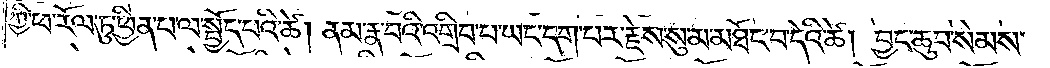ཀྱི་ཕ་རོལ་ཏུ་ཕྱིན་པ་ལ་སྤྱོད་པའི་ཚེ། ནམ་རྣ་བའི་འགྲིབ་པ་ཡང་དག་པར་རྗེས་སུ་མ་མཐོང་བ་དེའི་ཚེ། བྱང་ཆུབ་སེམས་
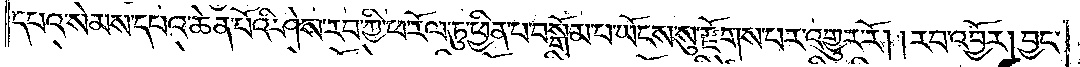དཔའ་སེམས་དཔའ་ཆེན་པོའི་ཤེས་རབ་ཀྱི་ཕ་རོལ་ཏུ་ཕྱིན་པ་བསྒོམ་པ་ཡོངས་སུ་རྫོགས་པར་འགྱུར་རོ། །རབ་འབྱོར། བྱང་
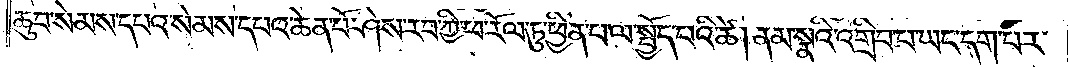ཆུབ་སེམས་དཔའ་སེམས་དཔའ་ཆེན་པོ་ཤེས་རབ་ཀྱི་ཕ་རོལ་ཏུ་ཕྱིན་པ་ལ་སྤྱོད་པའི་ཚེ། ནམ་སྣའི་འགྲིབ་པ་ཡང་དག་པར་
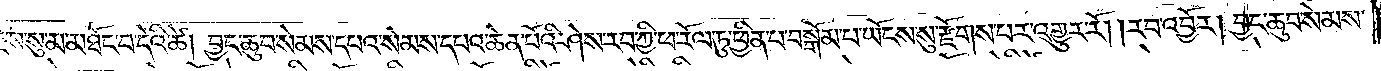རྗེས་སུ་མ་མཐོང་བ་དེའི་ཚེ། བྱང་ཆུབ་སེམས་དཔའ་སེམས་དཔའ་ཆེན་པོའི་ཤེས་རབ་ཀྱི་ཕ་རོལ་ཏུ་ཕྱིན་པ་བསྒོམ་པ་ཡོངས་སུ་རྫོགས་པར་འགྱུར་རོ། །རབ་འབྱོར། བྱང་ཆུབ་སེམས་
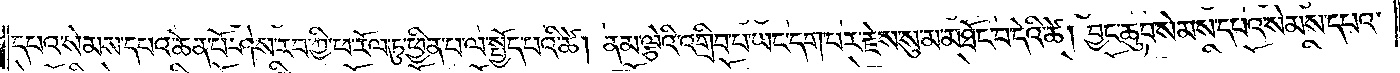དཔའ་སེམས་དཔའ་ཆེན་པོ་ཤེས་རབ་ཀྱི་ཕ་རོལ་ཏུ་ཕྱིན་པ་ལ་སྤྱོད་པའི་ཚེ། ནམ་ལྕེའི་འགྲིབ་པ་ཡང་དག་པར་རྗེས་སུ་མ་མཐོང་བ་དེའི་ཚེ། བྱང་ཆུབ་སེམས་དཔའ་སེམས་དཔའ་
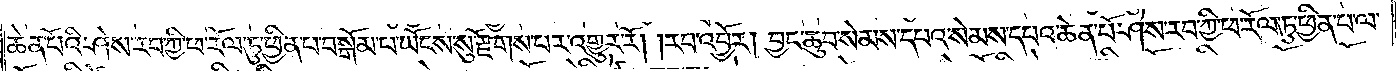ཆེན་པོའི་ཤེས་རབ་ཀྱི་ཕ་རོལ་ཏུ་ཕྱིན་པ་བསྒོམ་པ་ཡོངས་སུ་རྫོགས་པར་འགྱུར་རོ། །རབ་འབྱོར། བྱང་ཆུབ་སེམས་དཔའ་སེམས་དཔའ་ཆེན་པོ་ཤེས་རབ་ཀྱི་ཕ་རོལ་ཏུ་ཕྱིན་པ་ལ་
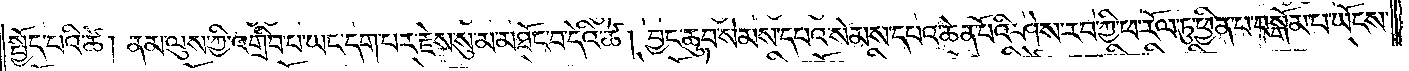སྤྱོད་པའི་ཚེ། ནམ་ལུས་ཀྱི་འགྲིབ་པ་ཡང་དག་པར་རྗེས་སུ་མ་མཐོང་བ་དེའི་ཚེ། བྱང་ཆུབ་སེམས་དཔའ་སེམས་དཔའ་ཆེན་པོའི་ཤེས་རབ་ཀྱི་ཕ་རོལ་ཏུ་ཕྱིན་པ་བསྒོམ་པ་ཡོངས་
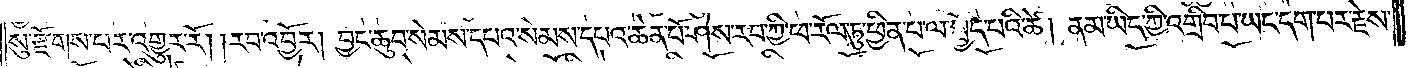སུ་རྫོགས་པར་འགྱུར་རོ། །རབ་འབྱོར། བྱང་ཆུབ་སེམས་དཔའ་སེམས་དཔའ་ཆེན་པོ་ཤེས་རབ་ཀྱི་ཕ་རོལ་ཏུ་ཕྱིན་པ་ལ་སྤྱོད་པའི་ཚེ། ནམ་ཡིད་ཀྱི་འགྲིབ་པ་ཡང་དག་པར་རྗེས་
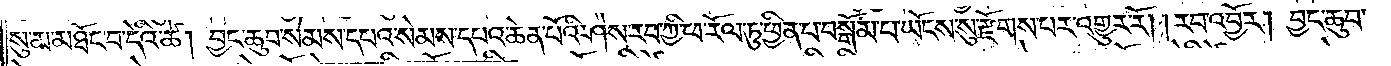སུ་མ་མཐོང་པ་དེའི་ཚེ། བྱང་ཆུབ་སེམས་དཔའ་སེམས་དཔའ་ཆེན་པོའི་ཤེས་རབ་ཀྱི་ཕ་རོལ་ཏུ་ཕྱིན་པ་བསྒོམ་པ་ཡོངས་སུ་རྫོགས་པར་འགྱུར་རོ། །རབ་འབྱོར། བྱང་ཆུབ་
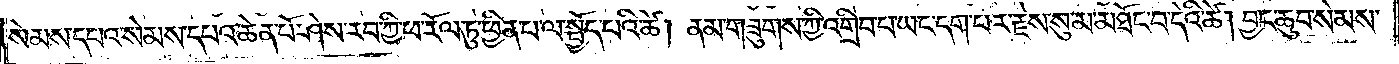སེམས་དཔའ་སེམས་དཔའ་ཆེན་པོ་ཤེས་རབ་ཀྱི་ཕ་རོལ་ཏུ་ཕྱིན་པ་ལ་སྤྱོད་པའི་ཚེ། ནམ་གཟུགས་ཀྱི་འགྲིབ་པ་ཡང་དག་པར་རྗེས་སུ་མ་མཐོང་བ་དེའི་ཚེ། བྱང་ཆུབ་སེམས་
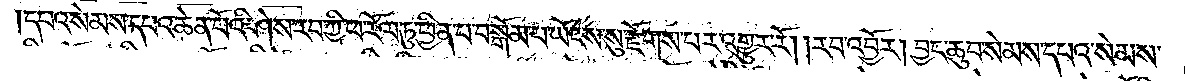དཔའ་སེམས་དཔའ་ཆེན་པོའི་ཤེས་རབ་ཀྱི་ཕ་རོལ་ཏུ་ཕྱིན་པ་བསྒོམ་པ་ཡོངས་སུ་རྫོགས་པར་འགྱུར་རོ། །རབ་འབྱོར། བྱང་ཆུབ་སེམས་དཔའ་སེམས་
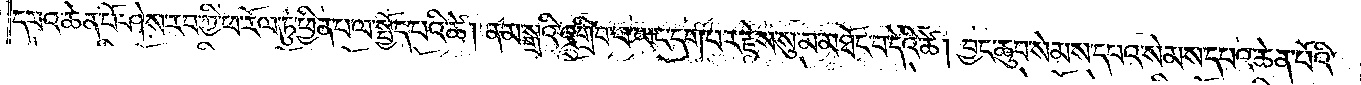དཔའ་ཆེན་པོ་ཤེས་རབ་ཀྱི་ཕ་རོལ་ཏུ་ཕྱིན་པ་ལ་སྤྱོད་པའི་ཚེ། ནམ་སྒྲའི་འགྲིབ་པ་ཡང་དག་པར་རྗེས་སུ་མ་མཐོང་བ་དེའི་ཚེ། བྱང་ཆུབ་སེམས་དཔའ་སེམས་དཔའ་ཆེན་པོའི་
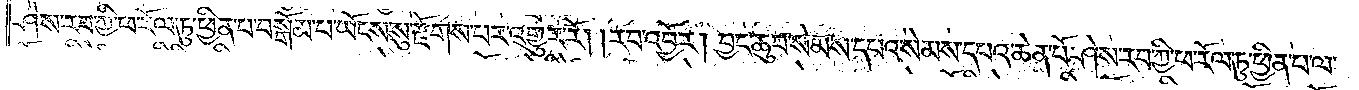ཤེས་རབ་ཀྱི་ཕ་རོལ་ཏུ་ཕྱིན་པ་བསྒོམ་པ་ཡོངས་སུ་རྫོགས་པར་འགྱུར་རོ། །རབ་འབྱོར། བྱང་ཆུབ་སེམས་དཔའ་སེམས་དཔའ་ཆེན་པོ་ཤེས་རབ་ཀྱི་ཕ་རོལ་ཏུ་ཕྱིན་པ་ལ་
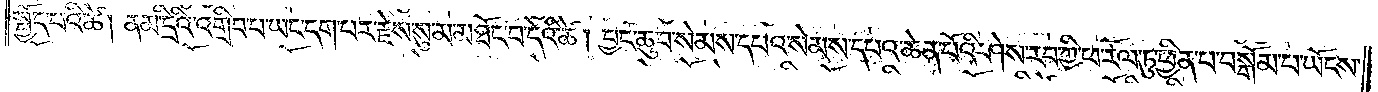སྤྱོད་པའི་ཚེ། ནམ་དྲིའི་འགྲིབ་པ་ཡང་དག་པར་རྗེས་སུ་མ་མཐོང་བ་དེའི་ཚེ། བྱང་ཆུབ་སེམས་དཔའ་སེམས་དཔའ་ཆེན་པོའི་ཤེས་རབ་ཀྱི་ཕ་རོལ་ཏུ་ཕྱིན་པ་བསྒོམ་པ་ཡོངས་
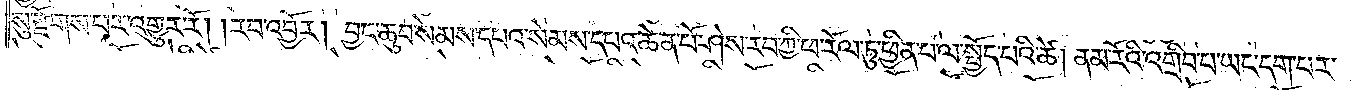སུ་རྫོགས་པར་འགྱུར་རོ། །རབ་འབྱོར། བྱང་ཆུབ་སེམས་དཔའ་སེམས་དཔའ་ཆེན་པོ་ཤེས་རབ་ཀྱི་ཕ་རོལ་ཏུ་ཕྱིན་པ་ལ་སྤྱོད་པའི་ཚེ། ནམ་རོའི་འགྲིབ་པ་ཡང་དག་པར་
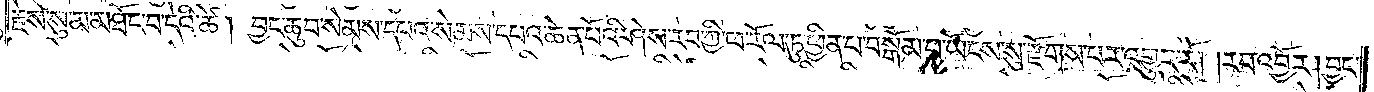རྗེས་སུ་མ་མཐོང་བ་དེའི་ཚེ། བྱང་ཆུབ་སེམས་དཔའ་སེམས་དཔའ་ཆེན་པོའི་ཤེས་རབ་ཀྱི་ཕ་རོལ་ཏུ་ཕྱིན་པ་བསྒོམ་པ་ཡོངས་སུ་རྫོགས་པར་འགྱུར་རོ། །རབ་འབྱོར། བྱང་
